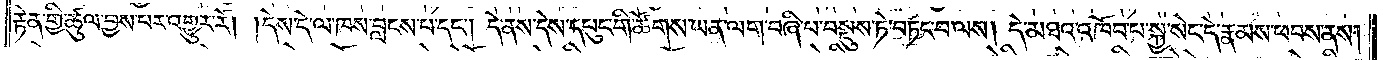རྟེན་གྱི་ཚུལ་བྱས་པར་འགྱུར་རོ། །དེས་དེ་ལ་ཁས་བླངས་པ་དང༌། དེ་ནས་དེས་དཔུང་གི་ཚོགས་ཡན་ལག་བཞི་པ་བསྡུས་ཏེ་བཏང་བ་ལས། དེ་མཐའ་འཁོབ་པ་སྐྱ་སེང་དེ་རྣམས་ཕབས་ནས།
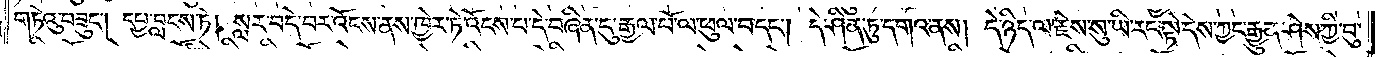གཏེའུ་བཟུང༌། དཔྱ་བླངས་ཏེ། སླར་བདེ་བར་འོངས་ནས་ཁྱེར་ཏེ་འོངས་པ་དེ་བཞིན་དུ་རྒྱལ་པོ་ལ་ཕུལ་བ་དང༌། དེ་ཤིན་ཏུ་དགའ་ནས། དེ་ཉིད་ལ་རྗེས་སུ་ཡི་རང་སྟེ་དེས་ཀྱང་རྒྱུན་ཤེས་ཀྱི་བུ་
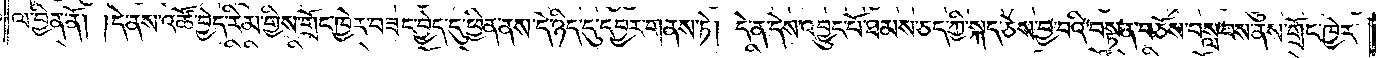ལ་བྱིན་ནོ། །དེ་ནས་འཚོ་བྱེད་རིམ་གྱིས་གྲོང་ཁྱེར་བཟང་བྱེད་དུ་ཕྱིན་ནས་དེ་ཉིད་དུ་དབྱར་གནས་ཏེ། དེ་ནས་དེས་འབྱུང་པོ་ཐམས་ཅད་ཀྱི་སྐད་ཅེས་བྱ་བའི་བསྟན་བཅོས་བསླབས་ནས་གྲོང་ཁྱེར་
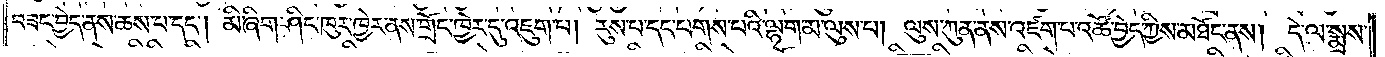བཟང་བྱེད་ནས་ཆས་པ་དང༌། མི་ཞིག་ཤིང་ཁུར་ཁྱེར་ནས་གྲོང་ཁྱེར་དུ་འཇུག་པ། རུས་པ་དང་པགས་པའི་ལྷག་མ་ལུས་པ། ལུས་ཀུན་ནས་འཛག་པ་འཚོ་བྱེད་ཀྱིས་མཐོང་ནས། དེ་ལ་སྨྲས་
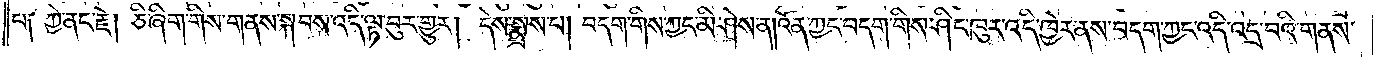པ༑ ཀྱེ་ནང་རྗེ། ཅི་ཞིག་གིས་གནས་སྐབས་འདི་ལྟ་བུར་གྱུར། དེས་སྨྲས་པ། བདག་གིས་ཀྱང་མི་ཤེས་ན། འོན་ཀྱང་བདག་གིས་ཤིང་ཁུར་འདི་ཁྱེར་ནས་བདག་ཀྱང་འདི་འདྲ་བའི་གནས་
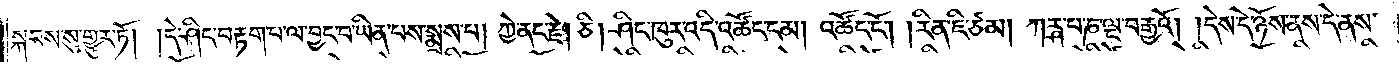སྐབས་སུ་གྱུར་ཏོ། །དེ་ཤིང་བརྟག་པ་ལ་བྱང་བ་ཡིན་པས་སྨྲས་པ། ཀྱེ་ནང་རྗེ། ཅི། ཤིང་ཁུར་འདི་འཚོང་ངམ། འཚོང་ངོ༌། །རིན་ཇི་ཙམ། ཀཪྴ་པ་ཎ་ལྔ་བརྒྱའོ། །དེས་དེ་ཉོས་ནས་དེ་ནས་
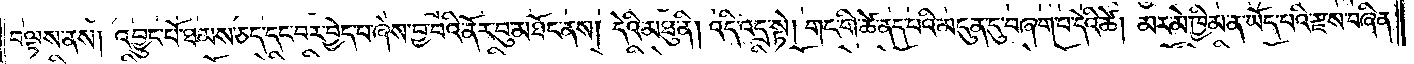བལྟས་ནས། འབྱུང་པོ་ཐམས་ཅད་དང་བར་བྱེད་པ་ཞེས་བྱ་བའི་ནོར་བུ་མཐོང་ནས། དེའི་མཐུ་ནི། འདི་འདྲ་སྟེ། གང་གི་ཚེ་ནད་པའི་མདུན་དུ་བཞག་པ་དེའི་ཚེ། མར་མེ་ཁྱིམ་ན་ཡོད་པའི་རྫས་བཞིན་
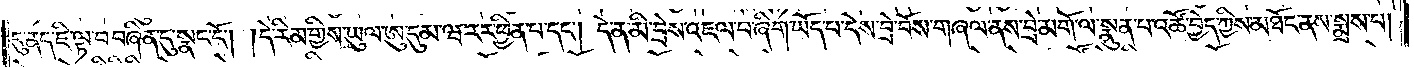དུ་ནད་ཇི་ལྟ་བ་བཞིན་དུ་སྣང་ངོ༌། །དེ་རིམ་གྱིས་ཡུལ་ཨུ་དུམ་ཝ་རར་ཕྱིན་པ་དང༌། དེ་ན་མི་བྲེས་འཇལ་བ་ཞིག་ཡོད་པ་དེས་བྲེ་བོས་གཞལ་ནས་བྲེ་མགོ་ལ་སྣུན་པ་འཚོ་བྱེད་ཀྱིས་མཐོང་ནས་སྨྲས་པ།
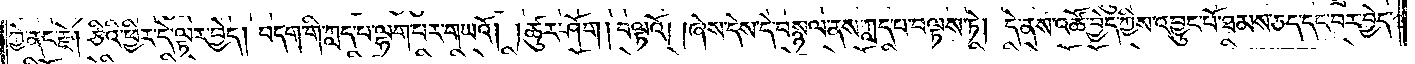ཀྱེ་ནང་རྗེ། ཅིའི་ཕྱིར་དེ་ལྟར་བྱེད། བདག་གི་ཀླད་པ་ལྷག་པར་གཡའོ། །ཚུར་ཤོག །བལྟའོ། །ཞེས་དེས་དེ་བསྙལ་ནས་ཀླད་པ་བལྟས་ཏེ། དེ་ནས་འཚོ་བྱེད་ཀྱིས་འབྱུང་པོ་ཐམས་ཅད་དང་བར་བྱེད་
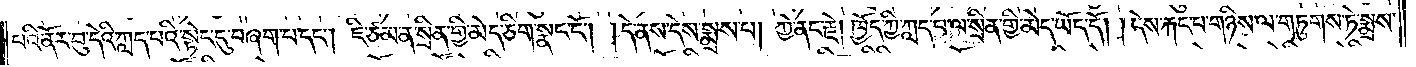པའི་ནོར་བུ་དེའི་ཀླད་པའི་སྟེང་དུ་བཞག་པ་དང༌། ཇི་ཙམ་ན་སྲིན་གྱི་མེད་ཅིག་སྣང་ངོ༌། །དེ་ནས་དེས་སྨྲས་པ། ཀྱེ་ནང་རྗེ། ཁྱོད་ཀྱི་ཀླད་པ་ལ་སྲིན་གྱི་མེད་ཡོད་དོ། །དེས་རྐང་པ་གཉིས་ལ་གཏུགས་ཏེ་སྨྲས་
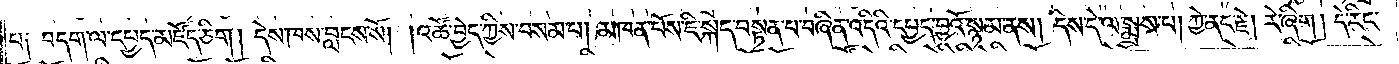པ། བདག་ལ་དཔྱད་མཛོད་ཅིག །དེས་ཁས་བླངས་སོ། །འཚོ་བྱེད་ཀྱིས་བསམ་པ། མཁན་པོས་ཇི་སྐད་བསྟན་པ་བཞིན་འདིའི་དཔྱད་བྱའོ་སྙམ་ནས། དེས་དེ་ལ་སྨྲས་པ། ཀྱེ་ནང་རྗེ། རེ་ཞིག །དེ་རིང་
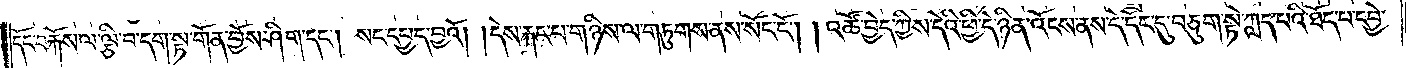དོང་བརྐོས་ལ་ལྕི་བ་དག་སྟ་གོན་བྱོས་ཤིག་དང༌། སང་དཔྱད་བྱའོ། །དེས་རྐང་པ་གཉིས་ལ་གཏུགས་ནས་སོང་ངོ༌། །འཚོ་བྱེད་ཀྱིས་དེའི་ཕྱི་དེ་ཉིན་འོངས་ནས་དེ་དོང་དུ་བཅུག་སྟེ་ཀླད་པའི་ཐོད་པ་དབྱེ་
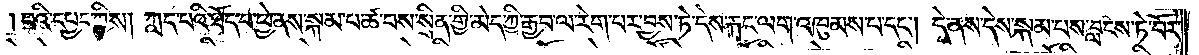།བའི་དཔྱད་ཀྱིས། ཀླད་པའི་ཐོད་པ་ཕྱེ་ནས་སྐམ་པ་ཚ་བས་སྲིན་གྱི་མེད་ཀྱི་རྒྱབ་ལ་རེག་པར་བྱས་ཏེ་དེས་རྐང་ལག་འཁུམས་པ་དང༌། དེ་ནས་དེས་སྐམ་པས་བླངས་ཏེ་བོར་
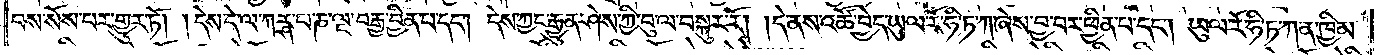བས་སོས་པར་གྱུར་ཏོ། །དེས་དེ་ལ་ཀརྴ་པ་ཎ་ལྔ་བརྒྱ་བྱིན་པ་དང༌། དེས་ཀྱང་རྒྱུན་ཤེས་ཀྱི་བུ་ལ་བསྐུར་རོ། །དེ་ནས་འཚོ་བྱེད་ཡུལ་རོ་ཧི་ཏ་ཀ་ཞེས་བྱ་བར་ཕྱིན་པ་དང༌། ཡུལ་རོ་ཧི་ཏ་ཀ་ན་ཁྱིམ་
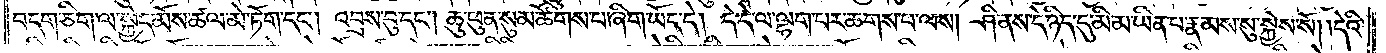བདག་ཅིག་ལ་སྐྱེད་མོས་ཚལ་མེ་ཏོག་དང༌། འབྲས་བུ་དང༌། ཆུ་ཕུན་སུམ་ཚོགས་པ་ཞིག་ཡོད་དེ། དེ་དེ་ལ་ལྷག་པར་ཆགས་པ་ལས། ཤི་ནས་དེ་ཉིད་དུ་མི་མ་ཡིན་པ་རྣམས་སུ་སྐྱེས་སོ། །དེའི་
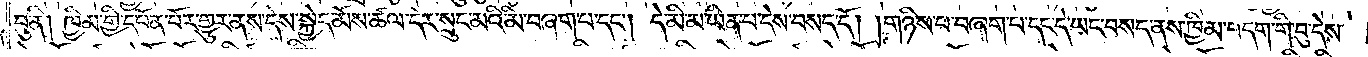བུ་ནི། ཁྱིམ་གྱི་དབོན་པོར་གྱུར་ནས་དེས་སྐྱེད་མོས་ཚལ་དེར་སྲུང་མའི་མི་བཞག་པ་དང༌། དེ་མི་མ་ཡིན་པ་དེས་བསད་དོ། །གཉིས་པ་བཞག་པ་དང༌། དེ་ཡང་བསད་ནས་ཁྱིམ་བདག་གི་བུ་དེས་
